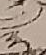༣
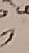༡
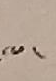ལ་
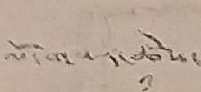ལོ་གསར་ཚེས་
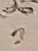༡
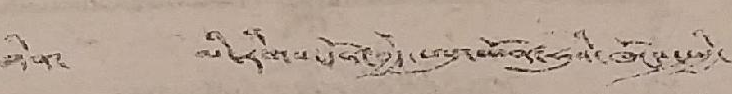ཉིན་ མི་རིགས་དོན་བྱེད་ཨུ་ཡོན་ཧུའི་ཁོངས་སྤྱི་
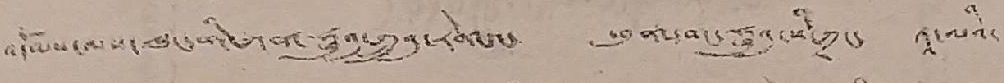འདོམས་ལས་ཁང་གི་ཀན་ཧྲུའུ་གྲུའུ་རེན་དང་ ཕུན་དབང་ཧྥུའུ་སི་ཀྲང་ ཏཱ་ལའི་
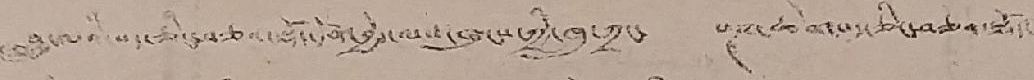བླ་མའི་པད་ཅིང་བཅས་བཅའ་སྡོད་དོན་བྱེད་ལས་ཁུངས་ཀྱི་ཁྲུ་ཀྲང་ པཎ་ཆེན་པད་ཅིང་བཅའ་སྡོད་
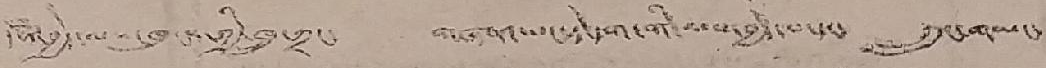དོན་བྱེད་ལས་ཁུངས་ཀྱི་ཁྲུ་ཀྲང་ གཞན་ཡང་དེ་དག་གི་ལས་བྱེད་པ་དང་ ཀྲུང་གཡང་
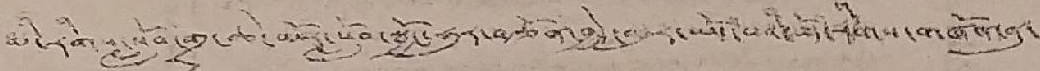མི་རིགས་སློབ་གྲྭ་ཆེ་མོར་སློབ་སྦྱོང་ཧུར་བརྩོན་བྱེད་འབུར་ཡོད་པའི་བོད་རིགས་གཟོནན་ནུ་
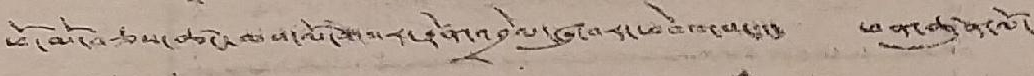ཕོ་མོ་བཅས་ཚང་མས་ལོ་གསར་རྟེན་འབྲེལ་ཞུ་བར་ཕེབས་པ་དང་ ཕན་ཚུན་ལོ་
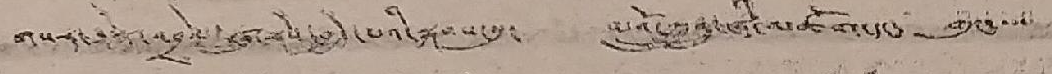གསར་རྟེན་འབྲེལ་ཞུ་རེས་བྱེད་པའི་སྐབས་སུ་ མའོ་ཀྲུའུ་ཞི་མཆོག་དང་ གུང་་་་་
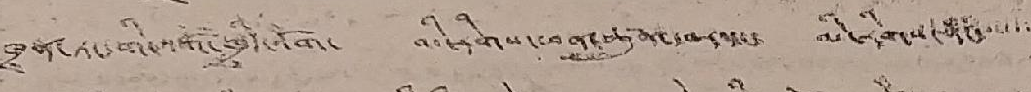ཁྲན་ཏང་གི་འགོ་ཁྲིད་འོག་ མི་རིགས་ཕན་ཚུན་དབར་དང་ མི་རིགས་ནང་་་་་་
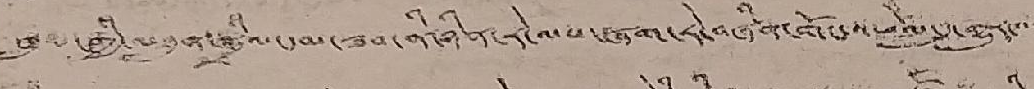ཁུལ་གྱི་མཐུན་སྒྲིལ་དམ་ཟབ་ནི་ཉིན་རེ་ལས་ཞག་རེ་བཞིན་གོང་འཕེལ་དུ་གྱུར་་་་་
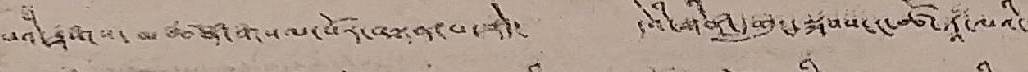པའི་རྟགས་མཚན་གསལ་པོར་བསྟན་པ་རེད་ དེའི་ཉིན་དགུང་སྐབས་ང་ཚོ་ཏཱ་ལའི་
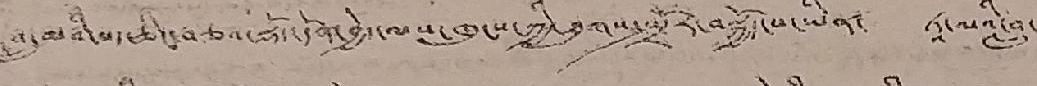བླ་མའི་པད་ཅིང་བཅའ་སྡོད་དོན་བྱེད་ལས་ཁུངས་ཀྱི་ཐུགས་སྤྲོར་བསྐྱོད་པ་ཡིན་ ཏཱ་ལའི་བླ་
